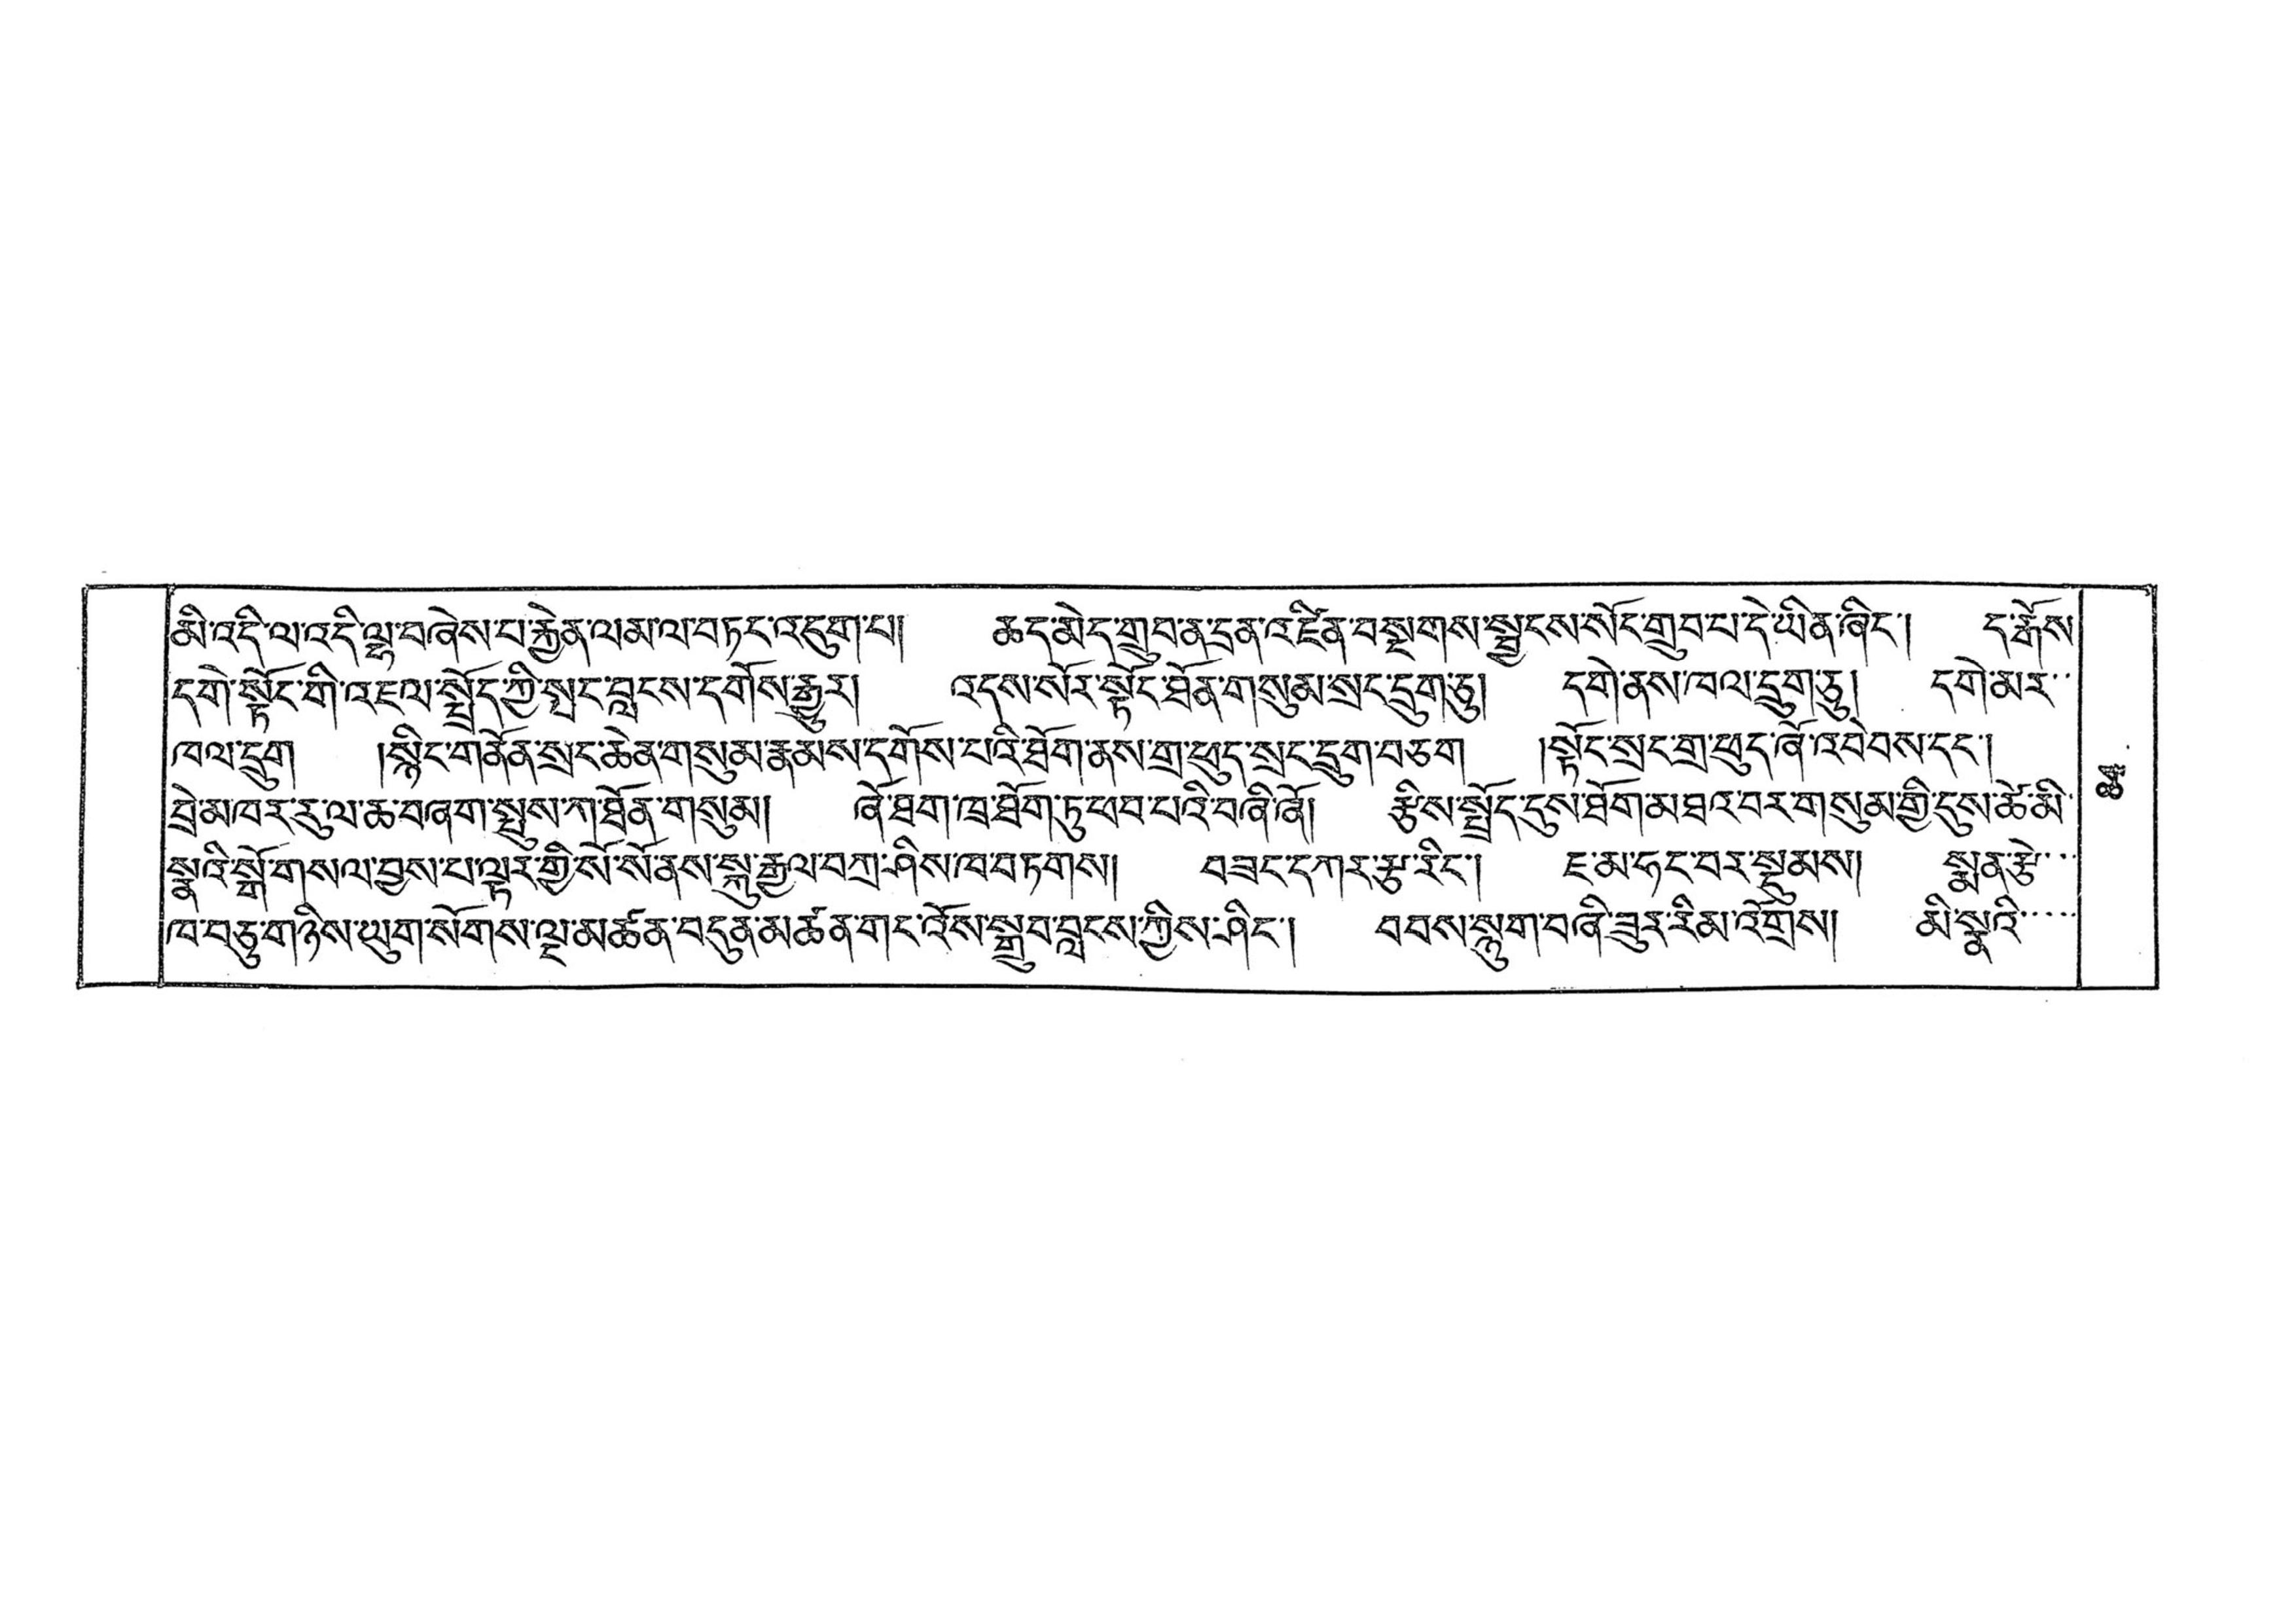མི་འདི་ལ་འདི་ལྷ་བཞེས་པ་རྐྱེན་ལམ་ལ་བཏང་འདུག་པ། ཆད་མེད་གྲུབ་ན་དྲན་འཛིན་བསྔགས་སྦྱངས་སོང་གྲུབ་པ་དེ་ཡིན་ཞིང་། ད་རྒོས་
དགེ་སྟོང་གི་འཇལ་སྤྲོད་ཀྱི་སྤང་བླངས་དགོས་རྒྱུར། འདས་སོར་སྟོང་ཐོན་གསུམ་སྲང་དྲུག་ཅུ། དགེ་ནས་ཁལ་དྲུག་ཅུ། དགེ་མར་་
ཁལ་དྲུག །སྙིང་གནོན་སྲང་ཆེན་གསུམ་རྣམས་དགོས་པའི་ཐོག་ནས་གྲ་ཕུད་སྲང་དྲུག་བཅིག །སྟོང་སྲང་གྲ་ཕུད་ཞོ་འབེབས་དང་།
བྲེ་མཁར་རུ་ལ་ཆ་བཞག་སྤུས་ཀ་ཐོན་གསུམ། ཞོ་ཐག་ཁྲ་ཐོག་ཏུ་ཕབ་པའི་བཞི་ཞོ། རྩིས་སྤྲོད་དུས་ཐོག་མཐའ་བར་གསུམ་གྱི་དུས་ཚེ་མི་
སྣའི་སྒོ་གསལ་བྱས་པ་ལྟར་གྱི་སོ་སོ་ནས་སྐུ་རྒྱལ་བཀྲ་ཤིས་ཁ་བཏགས། བཟང་དཀར་རྩ་རིང་། ཇ་མ་ཧང་བར་སྡུམས། སྨན་རྩེ་་་
ཁ་བཅུ་གཉིས་ཡུག་སོགས་ལྔ་མཚན་བདུན་མཚན་གང་འོས་སྒྲུབ་བླངས་ཀྱིས་ཤིང་། བབས་སྙུག་བཞི་ཟུར་རིམ་འགྲོས། མི་སྣའི་་་་་
